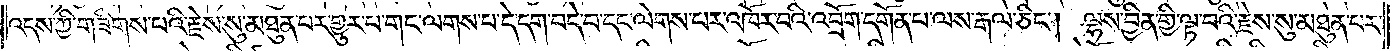འདས་ཀྱི་གཟིགས་པའི་རྗེས་སུ་མཐུན་པར་གྱུར་པ་གང་ལགས་པ་དེ་དག་བདེ་བ་དང་ལེགས་པར་འཁོར་བའི་འབྲོག་དགོན་པ་ལས་རྒྱལ་ཅིང༌། ལྷས་བྱིན་གྱི་ལྟ་བའི་རྗེས་སུ་མཐུན་པར་
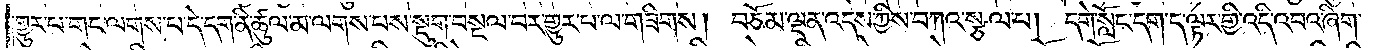གྱུར་པ་གང་ལགས་པ་དེ་དག་ནི་ཚུལ་མ་ལགས་པས་སྡུག་བསྔལ་བར་གྱུར་པ་ལ་གཟིགས། བཅོམ་ལྡན་འདས་ཀྱིས་བཀའ་སྩལ་པ། དགེ་སློང་དག་ད་ལྟར་གྱི་འདི་འབའ་ཞིག་
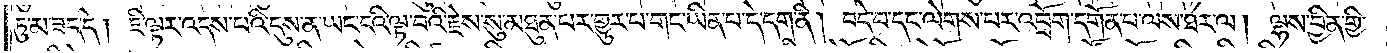ཏུ་མ་ཟད་དེ། ཇི་ལྟར་འདས་པའི་དུས་ན་ཡང་ངའི་ལྟ་བའི་རྗེས་སུ་མཐུན་པར་གྱུར་པ་གང་ཡིན་པ་དེ་དག་ནི། བདེ་བ་དང་ལེགས་པར་འབྲོག་དགོན་པ་ལས་ཐར་ལ། ལྷས་བྱིན་གྱི་
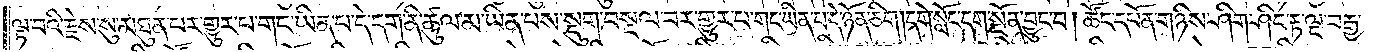ལྟ་བའི་རྗེས་སུ་མཐུན་པར་གྱུར་པ་གང་ཡིན་པ་དེ་དག་ནི་ཚུལ་མ་ཡིན་པས་སྡུག་བསྔལ་བར་གྱུར་པ་གང་ཡིན་པ་དེ་ཉོན་ཅིག །དགེ་སློང་དག་སྔོན་བྱུང་བ། ཚོང་དཔོན་གཉིས་ཤིག་ཤིང་རྟ་ལྔ་བརྒྱ་
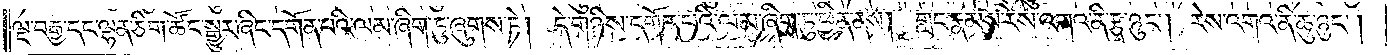ལྔ་བརྒྱ་དང་ལྷན་ཅིག་ཚོང་སྒྱུར་ཞིང་དགོན་པའི་ལམ་ཞིག་ཏུ་ཞུགས་ཏེ། དེ་གཉིས་དགོན་པའི་ལམ་ཞིག་ཏུ་ཕྱིན་ནས། གླང་རྣམས་རེས་འགའ་ནི་རྩྭ་ཉུང༌། རེས་འགའ་ནི་ཆུ་ཉུང༌།
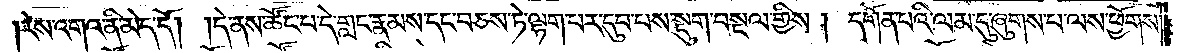རེས་འགའ་ནི་མེད་དོ། །དེ་ནས་ཚོང་པ་དེ་གླང་རྣམས་དང་བཅས་ཏེ་ལྷག་པར་དུབ་པས་སྡུག་བསྔལ་གྱིས། དགོན་པའི་ལམ་དུ་ཞུགས་པ་ལས་ཕྱོགས་
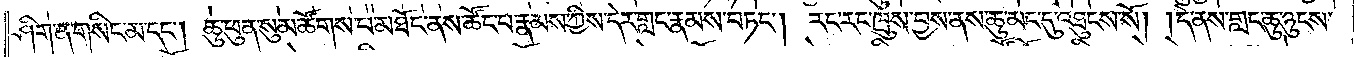ཤིག་ན་གསིང་མ་དང༌། ཆུ་ཕུན་སུམ་ཚོགས་པ་མཐོང་ནས་ཚོང་པ་རྣམས་ཀྱི་དེར་གླང་རྣམས་བཏང༌། རང་རང་ཁྲུས་བྱས་ནས་ཆུ་མང་དུ་འཐུངས་སོ། །དེ་ནས་གླང་ཆུ་ཉུངས་
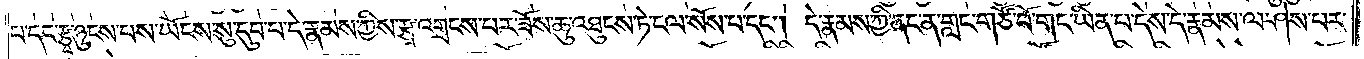པ་དང་རྩྭ་ཉུངས་པས་ཡོངས་སུ་དུབ་པ་དེ་རྣམས་ཀྱིས་རྩྭ་འགྲངས་བར་ཟོས་ཆུ་འཐུངས་ཏེ་ངལ་སོས་པ་དང༌། དེ་རྣམས་ཀྱི་ནང་ན་གླང་གཙོ་བོ་གང་ཡིན་པ་དེས་དེ་རྣམས་ལ་ཤེས་པར་
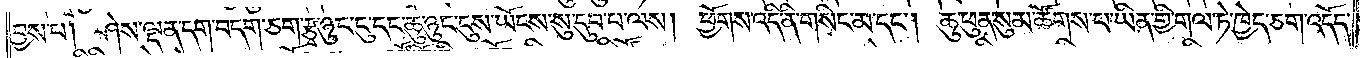བྱས་པ། ཤེས་ལྡན་དག་བདག་ཅག་རྩྭ་ཉུང་ངུ་དང་ཆུ་ཉུང་ཡོངས་སུ་དུབ་པ་ལས། ཕྱོགས་འདི་ནི་གསིང་མ་དང༌། ཆུ་ཕུན་སུམ་ཚོགས་པ་ཡིན་གྱི་གལ་ཏེ་ཁྱེད་ཅག་འདོད་
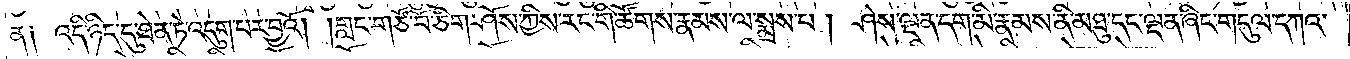ན༑ འདི་ཉིད་དུ་ཐེན་ཏེ་འདུག་པར་བྱའོ། །གླང་གཙོ་བོ་ཅིག་ཤོས་ཀྱིས་རང་གི་ཚོགས་རྣམས་ལ་སྨྲས་པ། ཤེས་ལྡན་དག་མི་རྣམས་ནི་མཐུ་དང་ལྡན་ཞིང་གདུལ་དཀའ་
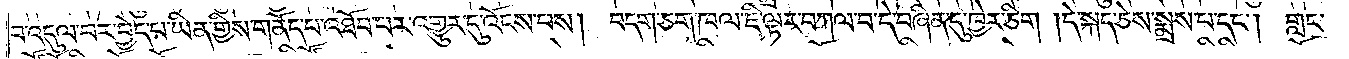བ་འདུལ་བར་བྱེད་པ་ཡིན་གྱིས་གནོད་པ་འཐོབ་པར་འགྱུར་དུ་འོངས་བས། བདག་ཅག་ཁལ་ཇི་ལྟར་བཀལ་བ་དེ་བཞིན་དུ་ཁྱེར་ཅིག །དེ་སྐད་ཅེས་སྨྲས་པ་དང༌། གླང་
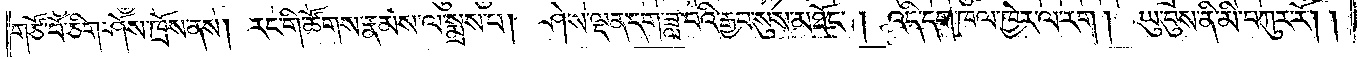གཙོ་བོ་ཅིག་ཤོས་ཁྲོས་ནས། རང་གི་ཚོགས་རྣམས་ལ་སྨྲས་པ། ཤེས་ལྡན་དག་ཟླ་བའི་རྒྱབ་སུས་མཐོང༌། འདི་དག་ཁལ་ཁྱེར་ལ་རག །ཡུ་བུས་ནི་མི་བཀུར་རོ། །
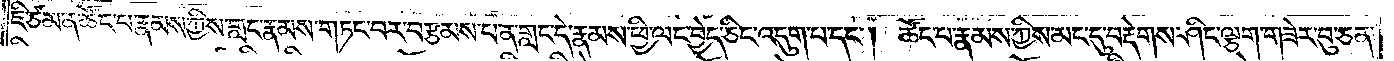ཇི་ཙམ་ན་ཚོང་པ་རྣམས་ཀྱིས་གླང་རྣམས་གཏང་བར་བརྩམས་པ་ན་གླང་དེ་རྣམས་ཕྱི་ལང་བྱེད་ཅིང་འདུག་པ་དང༌། ཚོང་པ་རྣམས་ཀྱིས་མང་དུ་བརྡེགས་ཤིང་ལྕག་གཟེར་བུ་ཅན་
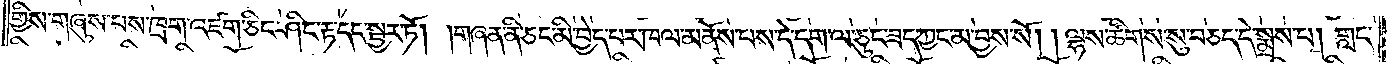གྱིས་གཞུས་པས་ཁྲག་འཛག་ཅིང་ཤིང་རྟ་དང་སྦྱར་ཏོ། །གཞན་ནི་ཅང་མི་བྱེད་པར་ཁལ་མནོས་པས་དེ་དག་ལ་ཅུང་ཟད་ཀྱང་མ་བྱས་སོ། །ལྷས་ཚིགས་སུ་བཅད་དེ་སྨྲས་པ། གླང་
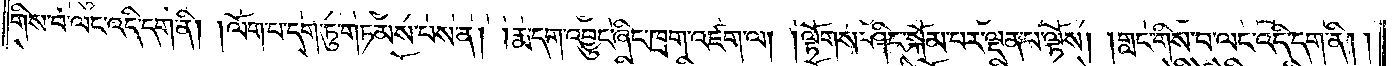གིས་བ་ལང་འདི་དག་ནི། །ལོག་པ་དག་ཏུ་གཏམས་པས་ན། །རྨ་དག་འབྱུང་ཞིང་ཁྲག་འཛག་ལ། །ལྟོགས་ཤིང་སྐོམ་པར་ལྡན་པ་ལྟོས། །གླང་གིས་བ་ལང་འདི་དག་ནི༎
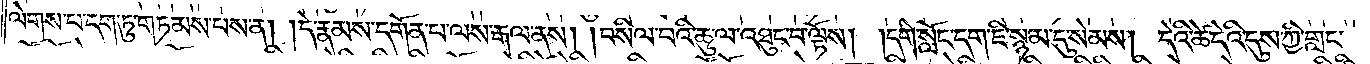ལེགས་པར་དག་ཏུ་གཏམས་པས་ན། །དེ་རྣམས་དགོན་པ་ལས་རྒལ་ནས། །བསིལ་བའི་ཆུ་ལ་འཐུང་བ་ལྟོས། །དགེ་སློང་དག་ཇི་སྙམ་དུ་སེམས། །དེའི་ཚེ་དེའི་དུས་ཀྱི་གླང་
